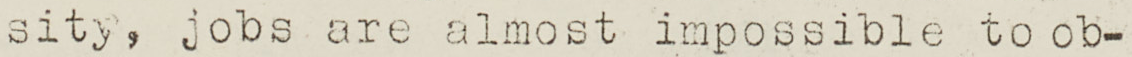sity, jobs are almost impossible to ob-
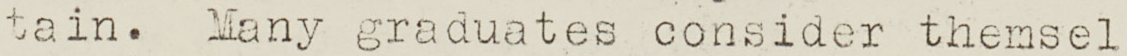tain. Many graduates consider themsel
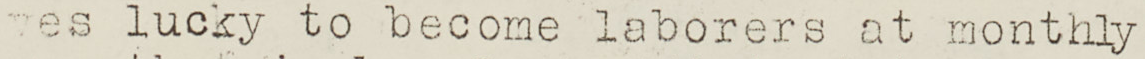ves lucky to become laborers at monthly
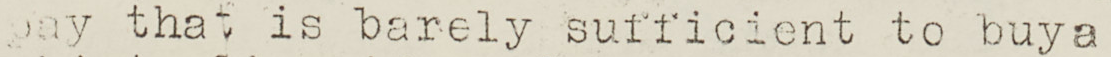pay that is barely sufficient to buy a
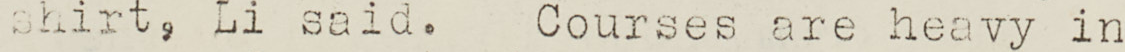shirt, Li said. Courses are heavy in
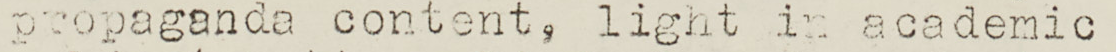propaganda content, light in academic
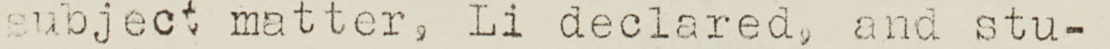subject matter, Li declared, and stu-
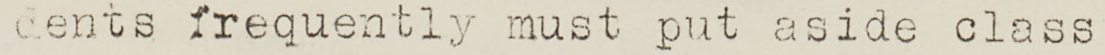dents frequently must put aside class
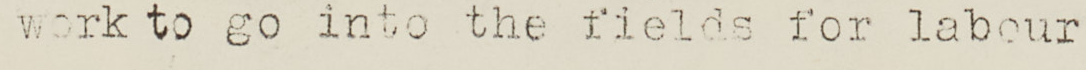work to go into the fields for labour
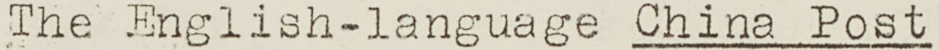The English language China Post
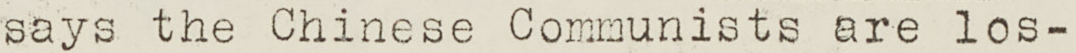says the Chinese Communists are los-
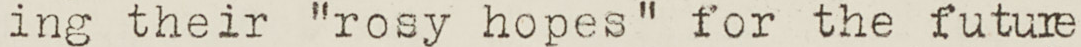ing their "rosy hopes" for the future
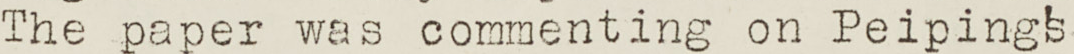The paper was commenting on Piping's
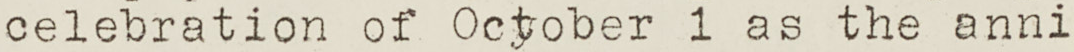celebration of October 1 as the anni
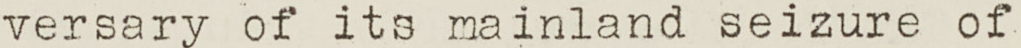versary of its mainland seizure of
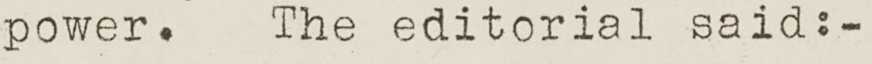power. The editorial said:-
